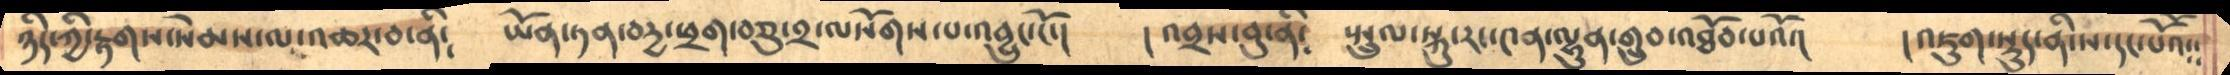ཉིད་ཀྱི་རྟགས་སེམས་ལ་འཆར་བ་ནི༴    ཡོན་ཏན་བདྱ་ཕྲག་བཅུ་༢་ལསོགས་པ་འབྱུང་ངོ་།     ། འབྲས་བུ་ནི༴   སྤྲུལ་སྐུ་རང་༤ན་ལྷུན་གྲུབ་འཐོབ་པའོ་།   །འཇུག་སྡུད་ནི་ས་དང་པོའོ༴༴
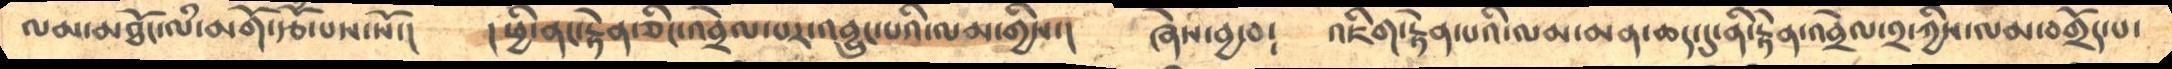ལམ་མཐོང་ལཾ་མགོ་རྩོ་པས་སོ་།     །ཕྱི་ནང་རྟེན་ཅིང་འབྲེལ་པར་འབྱུང་པའི་ལམ་གྱིས་།    ཞེས་བྱ་བ༴   འཇིག་རྟེན་པའི་ལམ་མན་ཆད་དུ་ནི་རྟེན་འབྲེལ་༢་ཀྱིས་ལམ་བགྲོད་པ་
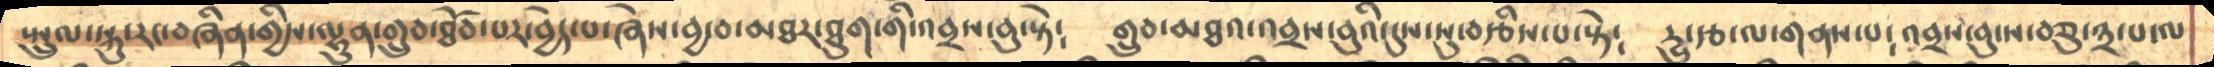སྤྲུལ་སྐུ་རང་བཞིན་གྱིས་ལྷུན་གྲུབ་ཐོབ་པར་བྱེད་པ་ཞེས་བྱ་བ་མཐར་ཐུག་གི་འབྲས་བུ་སྟེ༴    གྲུབ་མཐའ་འབྲས་བུའི་དུས་སུ་བརྩིས་པ་སྟེ༴   དྱུ་རྩ་ལ་གནས་པ༴ འབྲས་བུ་ས་བཅུ་༣་པ་ལ
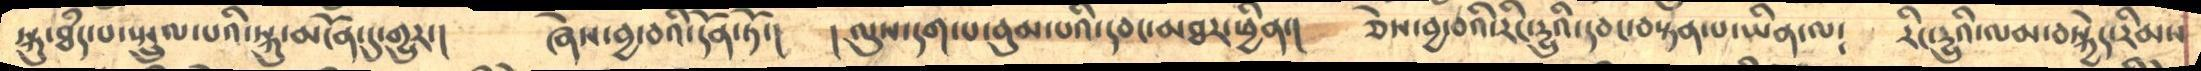སྐུ་ཐཾད་པ་སྤྲུལ་པའི་སྐུ་མངོན་དུ་གྱུར་།    ཞེས་བྱ་བའི་དོན་ཏོ་།    །ལུས་དག་པ་བུམ་པའི་དབང་མཐར་ཕྱིན་།    ཅེས་བྱ་བའི་རིང་དྱུའི་དབང་བསྟན་པ་ཡིན་ལ༴    རིང་དྱུའི་ལམ་བསྐྱེད་རིམས་
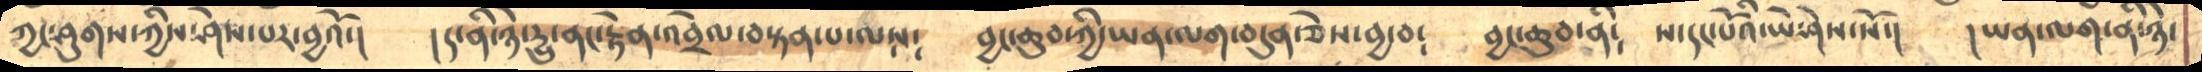ཀྱང་ཤུགས་ཀྱིས་ཤེས་པར་བྱའོ་།    །ད་ནི་ཉེ་དྱུ་ནང་རྟེན་འབྲེལ་བསྟན་པ་ལས༴    བྱང་ཆུབ་ཀྱི་ཡན་ལག་བདུན་ཅེས་བྱ་བ༴    བྱང་ཆུབ་ནི༴   ས་དང་པོའི་ཡེ་ཤེས་སོ་།    །ཡན་ལག་ནི་ཉེ་
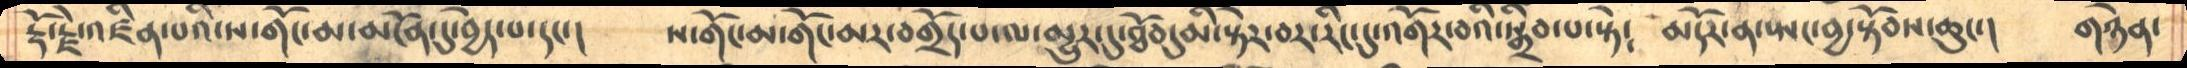རྡོ་རྗེ་འཛིན་པའི་ས་གོང་མ་མངོན་དུ་བྱེད་པ་དང་།    ས་གོང་མ་གོང་མར་བགྲོད་པ་ལ་མྱུར་དུ་ཐོབ་དུ་མི་སྟེར་བར་རིང་དུ་འགོར་བའི་སྒྲིབ་པ་སྟེ༴    མདོར་ན་སྤང་བྱ་སྟོབས་ཆུང་།   གཉེན་
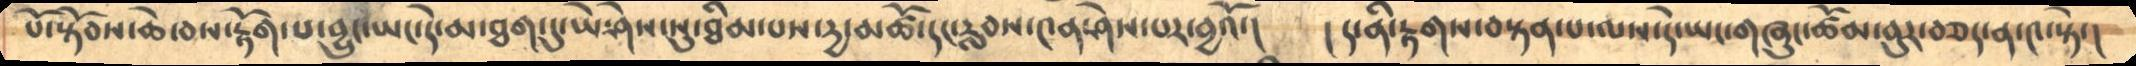པོ་སྟོབས་ཆེ་བས་རྟོག་པ་བྱུང་ཡང་དེ་མ་ཐག་དུ་ཡེ་ཤེས་སུ་ཐིམ་པས་དྱ་མཚོ་དང་རླབས་༤ན་ཤེས་པར་བྱའོ་།   ། ད་ནི་རྟགས་བསྟན་པ་ལས་དེ་ཡང་གཞུང་ཚོམ་བུར་བཅད་ན་༤་སྟེ་།
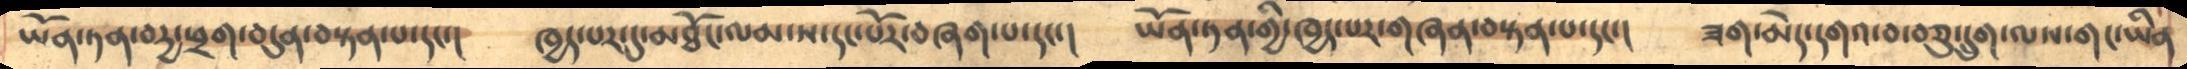ཡོན་ཏན་བདྱ་ཕྲག་བདུན་བསྟན་པ་དང་།    ཁྱད་པར་དུ་མཐོང་ལམ་ས་དང་པོར་བཞག་པ་དང་།    ཡོན་ཏན་གྱི་ཁྱད་པར་གཞན་བསྟན་པ་དང་།  ཟག་མེད་དགའ་བ་བཅུ་དདྲུག་ལས་གང་ཡིན
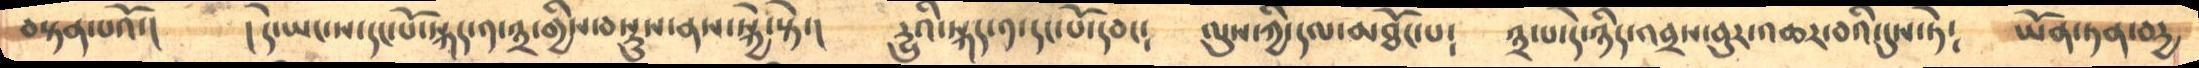བསྟན་པའོ་།   །དེ་ཡང་ས་དང་པོ་སྐད་༡་༣་གྱིས་བསྡུས་ནས་སྐྱེ་སྟེ་།    དྱུའི་སྐད་༡་དང་པོ་དབང༴   ལུས་ཀྱི་དལ་མཐོང་པ༴   ༣་པ་དེ་ཉིད་འབྲས་བུར་འཆར་བའི་དུས་ཏེ༴    ཡོན་ཏན་བདྱ
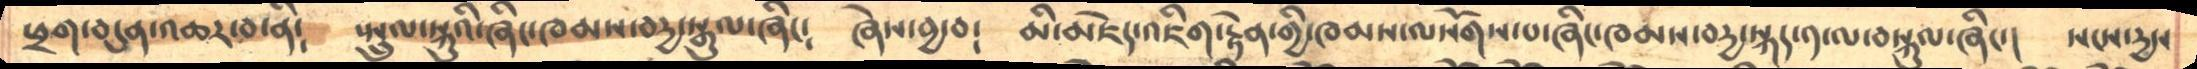ཕྲག་བདུན་འཆར་བ་ནི༴   སྤྲུལ་སྐུའི་ཞིང་ཁམས་བདྱ་སྒུལ་ཞིང༴   ཞེས་བྱ་བ༴   མི་མཇེད་འཇིག་རྟེན་གྱི་ཁམས་ལསོགས་པ་ཞིང་ཁམས་བདྱ་སྐད་༡་ལ་བསྐུལ་ཞིང་།   སངས་དྱས
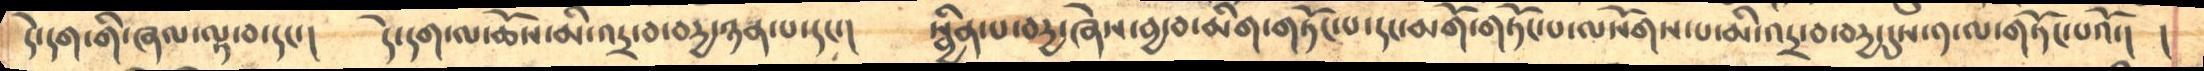དེ་དག་གི་ཞལ་ལྟ་བ་དང་།     དེ་དག་ལ་ཆོས་མི་འདྲ་བ་བདྱ་ཉན་པ་དང་།      སྦྱིན་པ་བདྱ་ཞེས་བྱ་བ་མིག་གཏོང་པ་དང་མགོ་གཏོང་པ་ལསོགས་པ་མི་འདྲ་བ་བདྱ་དུས་༡་ལ་གཏོང་པའོ་།  །
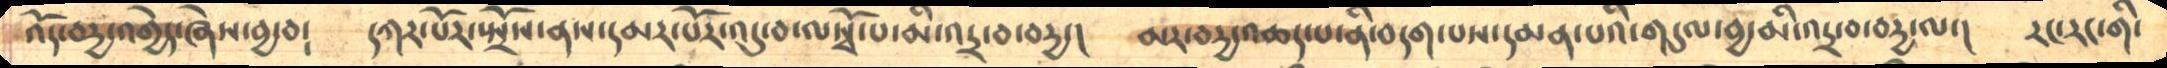འོད་བདྱ་འགྱེད་ཞེས་བྱ་བ༴     དཀར་པོར་སྤྲོས་ནས་དམར་པོར་འདུ་བ་ལསྭོ་པ་མི་འདྲ་བ་བདྱ་།   མར་བདྱ་འཆད་པ་ནི་བདག་པས་དམན་པའི་གདུལ་བྱ་མི་འདྲ་བ་བདྱ་ལ་།   རང་རང་གི་
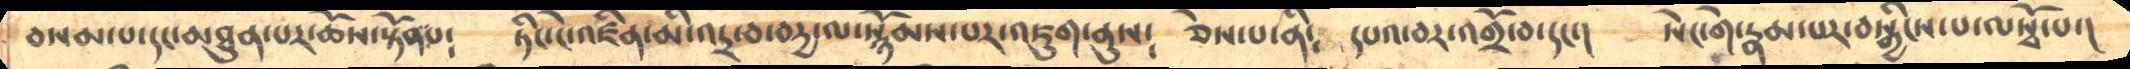བསམ་པ་དང་མཐུན་པར་ཆོས་སྟོན་པ༴    ཏིང་ངེ་འཛིན་མི་འདྲ་བ་བདྱ་ལ་སྙོམས་པར་འཇུག་ནུས༴   ཅེས་པ་ནི༴  དཔའ་བར་འགྲོ་བ་དང་།   སེང་གེ་རྣམ་པར་བསྒྱིངས་པ་ལསྭོ་པ་།
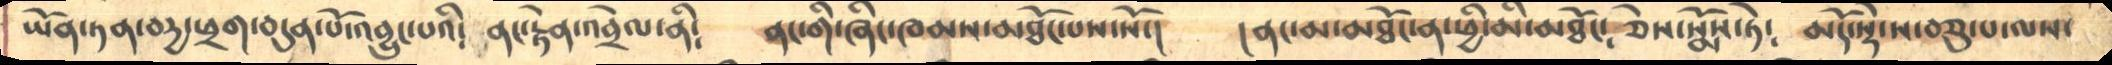ཡོན་ཏན་བདྱ་ཕྲག་བདུན་པོ་འབྱུང་པའི༴   ནང་རྟེན་འབྲེལ་ནི༴   ནང་གི་ཞིང་ཁམས་མཐོང་པས་སོ་།      །ནང་མ་མཐོང་ན་ཕྱི་མི་མཐོང༴ ཅེས་སྨོས་ཏེ༴   མདོ་སྡེ་ས་བཅུ་པ་ལས་
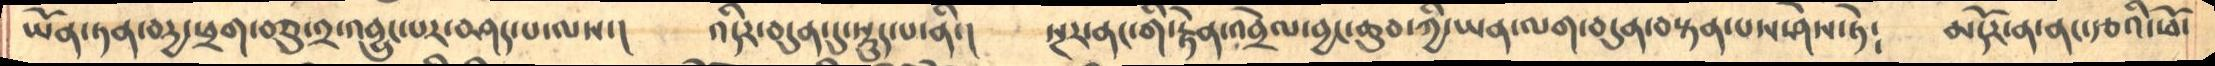ཡོན་ཏན་བདྱ་ཕྲག་བཅུ་༢་འབྱུང་པར་བཤད་པ་ལས་།       འདིར་བདུན་དུ་སྡུད་པ་ནི་།    སྔར་ནང་གི་རྟེན་འབྲེལ་བྱང་ཆུབ་ཀྱི་ཡན་ལག་བདུན་བསྟན་པས་ཤེས་ཏེ༴    མདོར་ན་ནང་རྩའི་ཕོ་
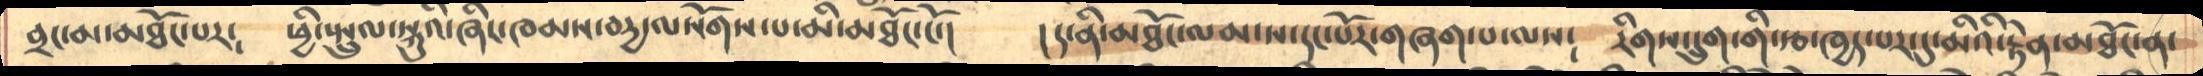བྲང་མ་མཐོང་པར༴    ཕྱི་སྤྲུལ་སྐུའི་ཞིང་ཁམས་བདྱ་ལསོགས་པ་མི་མཐོང་ངོ་།     །ད་ནི་མཐོང་ལམ་ས་དང་པོར་གཞག་པ་ལས༴   རིགས་དྲུག་གི་རྩ་ཁྱད་པར་དུ་མིའི་རྟེན་མཐོང་ན་
